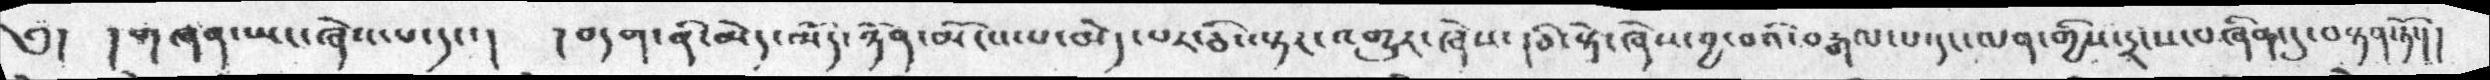༅།  །གཞན་ཡང་ཞེས་པ་དང་།  །བདག་ནི་མེད་མོད་ཉོན་མོངས་པ་མེད་པར་ཅི་ལྟར་འགྱུར་ཞེས་། ཅི་སྟེ་ཞེས་བྱ་བའི་བརྒལ་པ་དང་ལན་གྱིས་དྲངས་བཞིན་དུ་བསྟན་ཏོ་།།
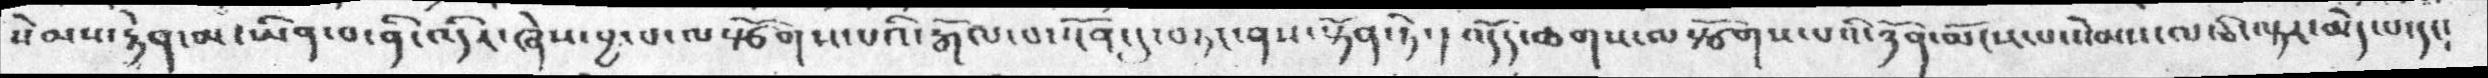སེམས་རྟེན་མ་ཡིན་བ་ནི་འདིར་ཞེས་བྱ་བ་ལསྩོགས་པའི་རྒོལ་བ་སྔོན་དུ་བཏང་ནས་སྟོན་ཏེ་ ། འདོད་ཆགས་ལསྩོགས་པའི་ཉོན་མོངས་པ་སེམས་ལ་ཅི་ལྟར་མེད་པ་དང༴
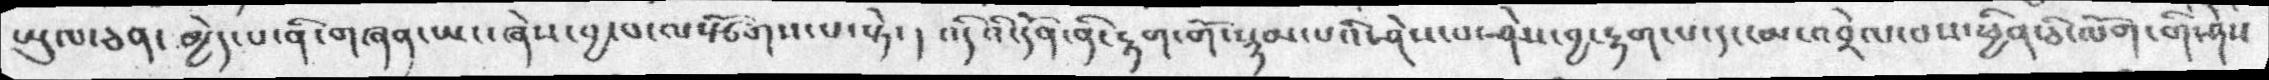ཡུལ་ཅན་མྱེད་པ་ནི་གཞན་ཡང་ཞེས་བྱ་བ་ལསྩོགས་པ་སྟེ་  ། འདིའི་དོན་ནི་རྟག་གོ་སྙམ་པའི་ཤེས་པ་ཤེས་བྱ་རྟག་པ་དང་མ་འབྲེལ་བས་ཕྱིན་ཅི་ལོག་གི་ཤེས་
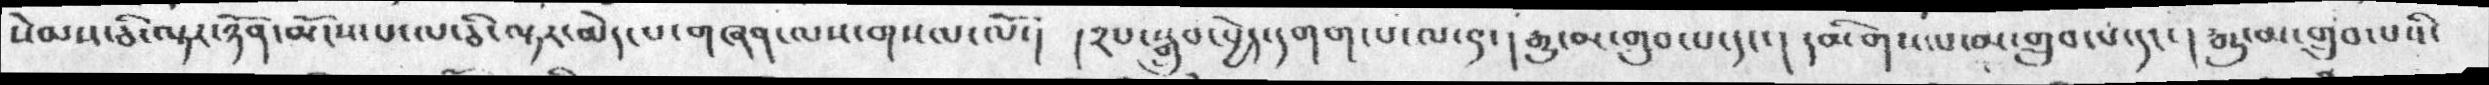སེམས་ཅི་ལྟར་ཉོན་མོངས་པ་ལ་ཅི་ལྟར་མེད་པ་གཞན་ལས་གསལ་ལོ་།  །༢པ་སྒྲུབ་བྱེད་དགག་པ་ལ་༤་།  རྒྱུ་མ་གྲུབ་པ་དང་།  དམིགས་པ་མ་གྲུབ་པ་དང་།  རྒྱུ་མ་གྲུབ་པའི་
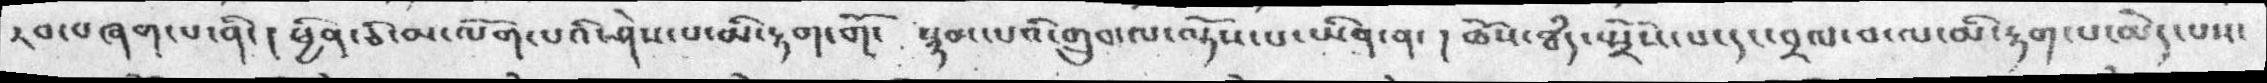རབ་བཞག་པ་ནི་།  ཕྱིན་ཅི་མ་ལོག་པའི་ཤེས་པ་མི་རྟག་གོ་  སྙམ་པའི་གྲུབ་ལ་ལྟོས་པ་ཡིན་ན་  ། ཆོས་ཐཾད་སྤྲོས་པ་དང་བྲལ་བ་ལ་མི་རྟག་པ་མེད་པས་
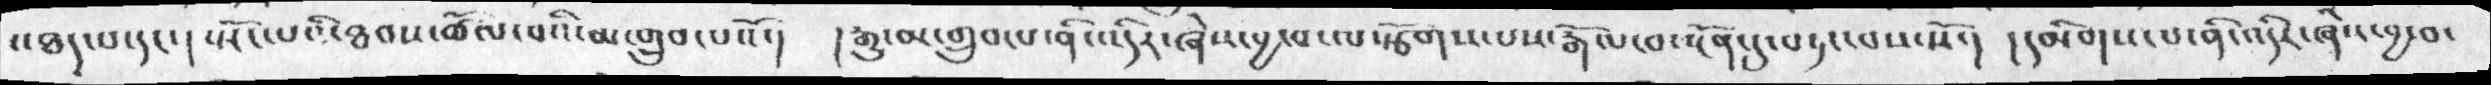འཐད་པ་དང་།  སྤོང་པའི་ཐབས་ཚོལ་བའི་མ་གྲུབ་པའོ་།  ། རྒྱུ་མ་གྲུབ་པ་ནི་འདིར་ཞེས་བྱ་བ་ལསྩོགས་པས་རྒོལ་བ་སྔོན་དུ་བཏང་བས་སོ་།  །དམིགས་པ་ནི་འདིར་ཞེས་བྱ་བ་
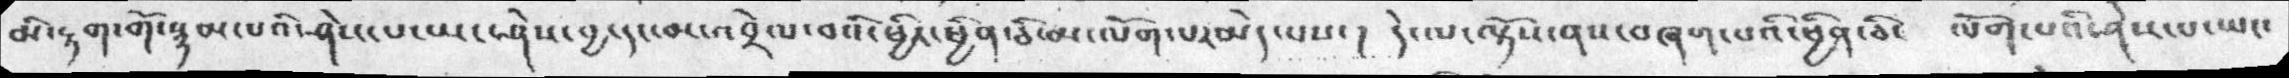མི་རྟག་གོ་སྙམ་པའི་ཤེས་པ་ཡང་ཤེས་བྱ་དང་མ་འབྲེལ་བའི་ཕྱིར་ཕྱིན་ཅི་མ་ལོག་པར་མེད་པས་།  དེ་ལ་ལྟོས་ནས་བཞག་པའི་ཕྱིན་ཅི་   ལོག་པའི་ཤེས་པ་ཡང་
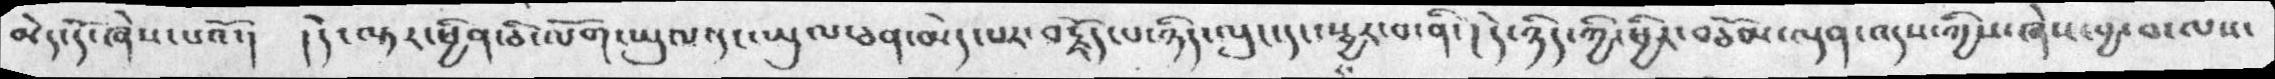མེད་དོ་ཞེས་པའོ་།  །དེ་ལྟར་ཕྱིན་ཅི་ལོག་ཡུལ་དང་ཡུལ་ཅན་མེད་པར་བརྗོད་པ་ཉིད་ལུང་དང་སྦྱར་བ་ནི་། དེ་ཉིད་ཀྱི་ཕྱིར་བཅོམ་ལྡན་འདས་ཀྱིས་ཞེས་བྱ་བ་ལས་
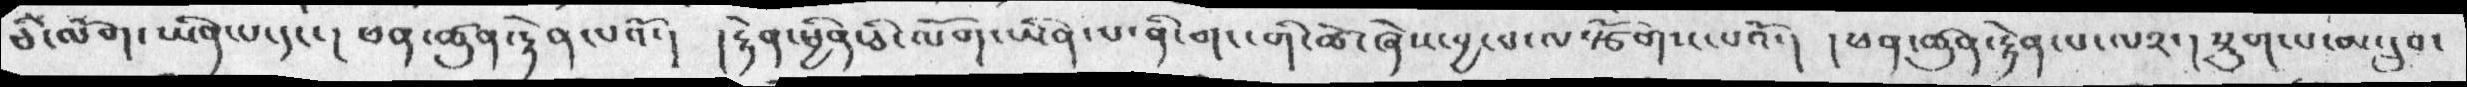ཅི་ལོག་ཡིན་པ་དང་།  ཕན་ཚུན་རྟེན་པའོ་།  །རྟེན་ཕྱིན་ཅི་ལོག་ཡིན་པ་ནི་གང་གི་ཚེ་ཞེས་བྱ་བ་ལསྩོགས་པའོ་།  ། ཕན་ཚུན་རྟེན་པ་ལ༢་།  སྡུག་པ་མ་དྲུབ་
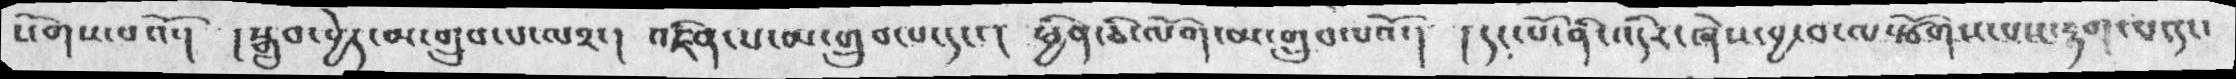སོགས་པའོ་།  །སྒྲུབ་བྱེད་མ་གྲུབ་པ་ལ༢་།  འཛིན་པ་མ་གྲུབ་པ་དང་།  ཕྱིན་ཅི་ལོག་མ་གྲུབ་པའོ་།  །དང་པོ་ནི་འདིར་ཞེས་བྱ་བ་ལསྩོགས་པས་རྟག་པ་དང་
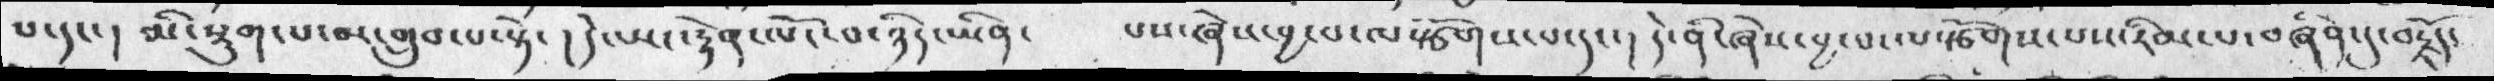པ་དང་།  མི་སྡུག་པ་མ་གྲུབ་པ་སྟེ་ ། དེ་ཡང་རྟེན་པ་ལོང་བ་ཉིད་ཡིན པས་ཞེས་བྱ་བ་ལསྩོགས་པ་དང་།  དེ་ནི་ཞེས་བྱ་བ་ལསྩོགས་པས་རིམ་པ་བཞིན་དུ་བརྗོད་
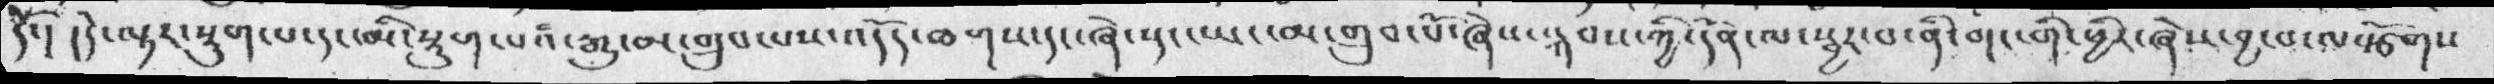དོ་།  །དེ་ལྟར་སྡུག་པ་དང་མི་སྡུག་པའི་རྒྱུ་མ་གྲུབ་པས་འདོད་ཆགས་དང་ཞེ་སྡང་ཡང་མ་གྲུབ་པོ་ཞེས་སྐབས་ཀྱི་དོན་ལ་སྦྱར་བ་ནི་གང་གི་ཕྱིར་ཞེས་བྱ་བ་ལསྩོགས་
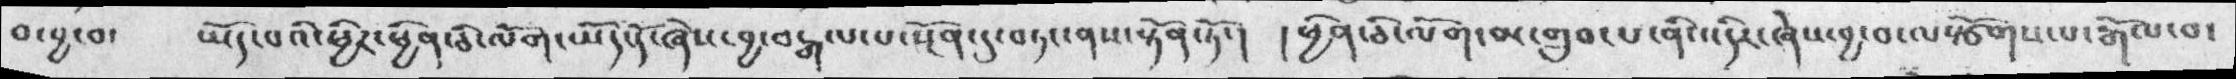བ་བྱ་བ་    ཡོད་པའི་ཕྱིར་ཕྱིན་ཅི་ལོག་ཡོད་དོ་ཞེས་བྱ་བརྒལ་པ་སྔོན་དུ་བཏང་ནས་སྟོན་ཏོ་།  །ཕྱིན་ཅི་ལོག་མ་གྲུབ་པ་ནི་འདིར་ཞེས་བྱ་བ་ལསྩོགས་པ་རྒོལ་བ་
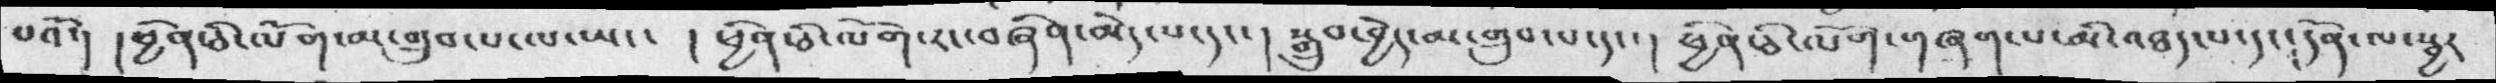པའོ་། །ཕྱིན་ཅི་ལོག་མ་གྲུབ་པ་ལ་ཡང་  །ཕྱིན་ཅི་ལོག་རང་བཞིན་མེད་པ་དང་། སྒྲུབ་བྱེད་མ་གྲུབ་པ་དང་། ཕྱིན་ཅི་ལོག་གཞག་པ་མི་འཐད་པ་དང་།དོན་ལ་སྦྱར
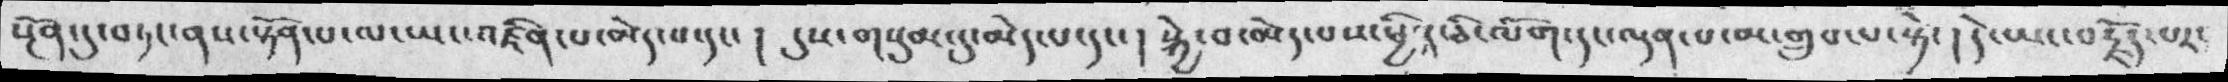སྔོན་དུ་བཏང་ནས་སྟོན་པ་ལ་ཡང་འཛིན་པ་མེད་པ་དང་། དུས་གསུམ་དུ་མེད་པ་དང་། སྐྱེ་བ་མེད་པས་ཕྱིན་ཅི་ལོག་དང་ལྡན་པ་མ་གྲུབ་པ་སྟེ་། དེ་ཡང་བརྗོད་པར་
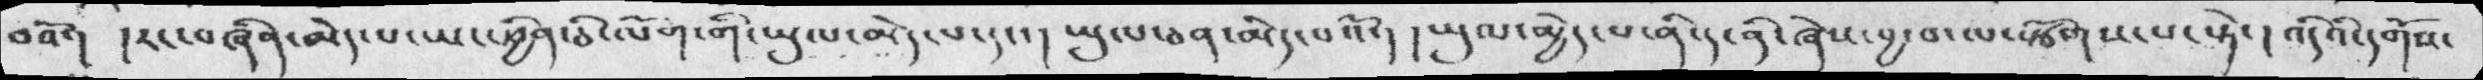བའོ་། རང་བཞིན་མེད་པ་ཡང་ཕྱིན་ཅི་ལོག་གི་ཡུལ་མེད་པ་དང་།  ཡུལ་ཅན་མེད་པའོ་། །ཡུལ་མྱེད་པ་ནི་ད་ནི་ཞེས་བྱ་བ་ལསྩོགས་པ་སྟེ་། འདིའི་དགོས་
